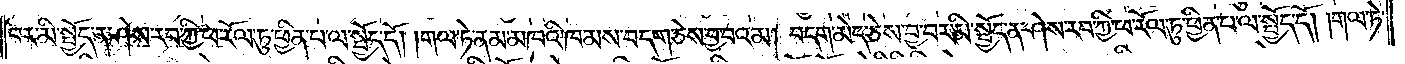བར་མི་སྤྱོད་ན་ཤེས་རབ་ཀྱི་ཕ་རོལ་ཏུ་ཕྱིན་པ་ལ་སྤྱོད་དོ། །གལ་ཏེ་ནམ་མཁའི་ཁམས་བདག་ཅེས་བྱ་བའམ། བདག་མེད་ཅེས་བྱ་བར་མི་སྤྱོད་ན་ཤེས་རབ་ཀྱི་ཕ་རོལ་ཏུ་ཕྱིན་པ་ལ་སྤྱོད་དོ། །གལ་ཏེ་
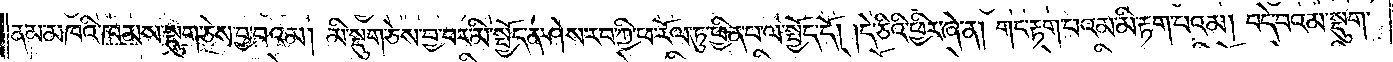ནམ་མཁའི་ཁམས་སྡུག་ཅེས་བྱ་བའམ། མི་སྡུག་ཅེས་བྱ་བར་མི་སྤྱོད་ན་ཤེས་རབ་ཀྱི་ཕ་རོལ་ཏུ་ཕྱིན་པ་ལ་སྤྱོད་དོ། །དེ་ཅིའི་ཕྱིར་ཞེ་ན། གང་རྟག་པའམ་མི་རྟག་པའམ། བདེ་བའམ་སྡུག་
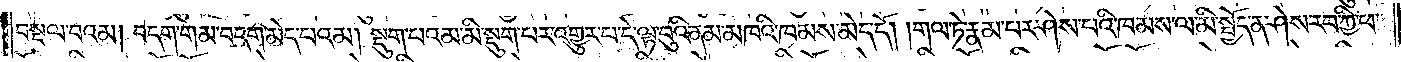བསྔལ་བའམ། བདག་གམ་བདག་མེད་པའམ། སྡུག་པའམ་མི་སྡུག་པར་འགྱུར་བ་དེ་ལྟ་བུའི་ནམ་མཁའི་ཁམས་མེད་དོ། །གལ་ཏེ་རྣམ་པར་ཤེས་པའི་ཁམས་ལ་མི་སྤྱོད་ན་ཤེས་རབ་ཀྱི་ཕ་
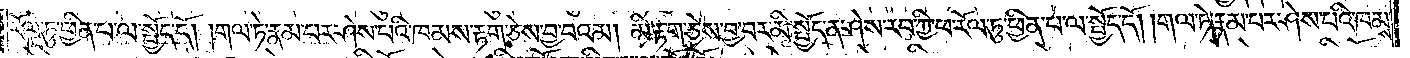རོལ་ཏུ་ཕྱིན་པ་ལ་སྤྱོད་དོ། །གལ་ཏེ་རྣམ་པར་ཤེས་པའི་ཁམས་རྟག་ཅེས་བྱ་བའམ། མི་རྟག་ཅེས་བྱ་བར་མི་སྤྱོད་ན་ཤེས་རབ་ཀྱི་ཕ་རོལ་ཏུ་ཕྱིན་པ་ལ་སྤྱོད་དོ། །གལ་ཏེ་རྣམ་པར་ཤེས་པའི་ཁམས་
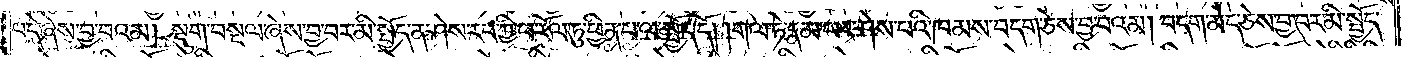བདེ་ཞེས་བྱ་བའམ། སྡུག་བསྔལ་ཞེས་བྱ་བར་མི་སྤྱོད་ན་ཤེས་རབ་ཀྱི་ཕ་རོལ་ཏུ་ཕྱིན་པ་ལ་སྤྱོད་དོ། །གལ་ཏེ་རྣམ་པར་ཤེས་པའི་ཁམས་བདག་ཅེས་བྱ་བའམ། བདག་མེད་ཅེས་བྱ་བར་མི་སྤྱོད་
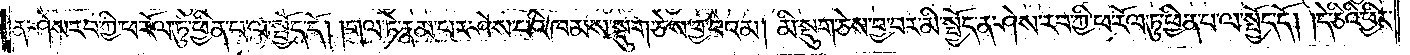ན་ཤེས་རབ་ཀྱི་ཕ་རོལ་ཏུ་ཕྱིན་པ་ལ་སྤྱོད་དོ། །གལ་ཏེ་རྣམ་པར་ཤེས་པའི་ཁམས་སྡུག་ཅེས་བྱ་བའམ། མི་སྡུག་ཅེས་བྱ་བར་མི་སྤྱོད་ན་ཤེས་རབ་ཀྱི་ཕ་རོལ་ཏུ་ཕྱིན་པ་ལ་སྤྱོད་དོ། །དེ་ཅིའི་ཕྱིར་
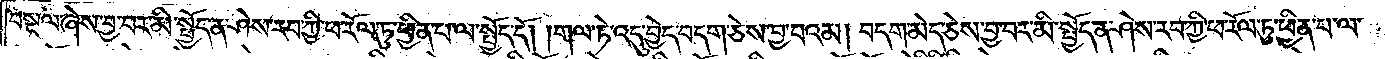བསྔལ་ཞེས་བྱ་བར་མི་སྤྱོད་ན་ཤེས་རབ་ཀྱི་ཕ་རོལ་ཏུ་ཕྱིན་པ་ལ་སྤྱོད་དོ། །གལ་ཏེ་འདུ་བྱེད་བདག་ཅེས་བྱ་བའམ། བདག་མེད་ཅེས་བྱ་བར་མི་སྤྱོད་ན་ཤེས་རབ་ཀྱི་ཕ་རོལ་ཏུ་ཕྱིན་པ་ལ་
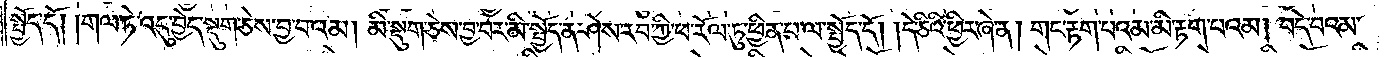སྤྱོད་དོ། །གལ་ཏེ་འདུ་བྱེད་སྡུག་ཅེས་བྱ་བའམ། མི་སྡུག་ཅེས་བྱ་བར་མི་སྤྱོད་ན་ཤེས་རབ་ཀྱི་ཕ་རོལ་ཏུ་ཕྱིན་པ་ལ་སྤྱོད་དོ། །དེ་ཅིའི་ཕྱིར་ཞེ་ན། གང་རྟག་པའམ་མི་རྟག་པའམ། བདེ་བའམ་
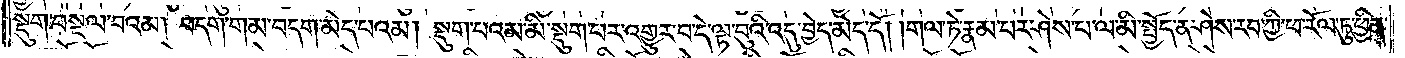སྡུག་བསྔལ་བའམ། བདག་གམ་བདག་མེད་པའམ། སྡུག་པའམ་མི་སྡུག་པར་འགྱུར་བ་དེ་ལྟ་བུའི་འདུ་བྱེད་མེད་དོ། །གལ་ཏེ་རྣམ་པར་ཤེས་པ་ལ་མི་སྤྱོད་ན་ཤེས་རབ་ཀྱི་ཕ་རོལ་ཏུ་ཕྱིན་
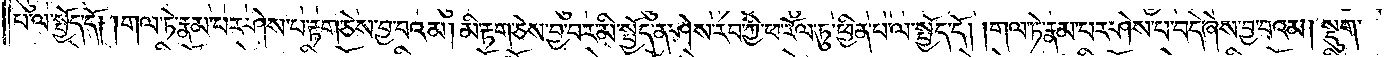པ་ལ་སྤྱོད་དོ། །གལ་ཏེ་རྣམ་པར་ཤེས་པ་རྟག་ཅེས་བྱ་བའམ། མི་རྟག་ཅེས་བྱ་བར་མི་སྤྱོད་ན་ཤེས་རབ་ཀྱི་ཕ་རོལ་ཏུ་ཕྱིན་པ་ལ་སྤྱོད་དོ། །གལ་ཏེ་རྣམ་པར་ཤེས་པ་བདེ་ཞེས་བྱ་བའམ། སྡུག་
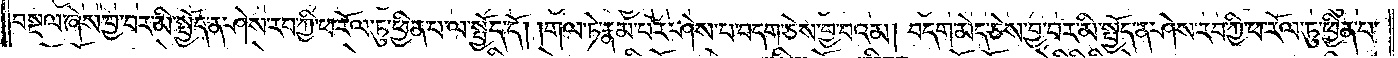བསྔལ་ཞེས་བྱ་བར་མི་སྤྱོད་ན་ཤེས་རབ་ཀྱི་ཕ་རོལ་ཏུ་ཕྱིན་པ་ལ་སྤྱོད་དོ། །གལ་ཏེ་རྣམ་པར་ཤེས་པ་བདག་ཅེས་བྱ་བའམ། བདག་མེད་ཅེས་བྱ་བར་མི་སྤྱོད་ན་ཤེས་རབ་ཀྱི་ཕ་རོལ་ཏུ་ཕྱིན་པ་
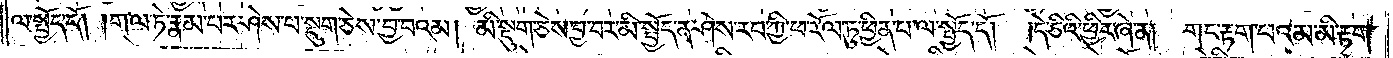ལ་སྤྱོད་དོ། །གལ་ཏེ་རྣམ་པར་ཤེས་པ་སྡུག་ཅེས་བྱ་བའམ། མི་སྡུག་ཅེས་བྱ་བར་མི་སྤྱོད་ན་ཤེས་རབ་ཀྱི་ཕ་རོལ་ཏུ་ཕྱིན་པ་ལ་སྤྱོད་དོ། །དེ་ཅིའི་ཕྱིར་ཞེ་ན། གང་རྟག་པའམ་མི་རྟག་
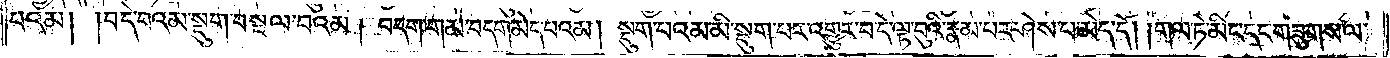པའམ། བདེ་བའམ་སྡུག་བསྔལ་བའམ། བདག་གམ་བདག་མེད་པའམ། སྡུག་པའམ་མི་སྡུག་པར་འགྱུར་བ་དེ་ལྟ་བུའི་རྣམ་པར་ཤེས་པ་མེད་དོ། །གལ་ཏེ་མིང་དང་གཟུགས་ལ་
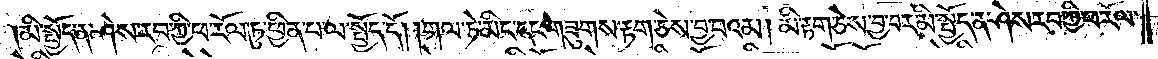མི་སྤྱོད་ན་ཤེས་རབ་ཀྱི་ཕ་རོལ་ཏུ་ཕྱིན་པ་ལ་སྤྱོད་དོ། །གལ་ཏེ་མིང་དང་གཟུགས་རྟག་ཅེས་བྱ་བའམ། མི་རྟག་ཅེས་བྱ་བར་མི་སྤྱོད་ན་ཤེས་རབ་ཀྱི་ཕ་རོལ་
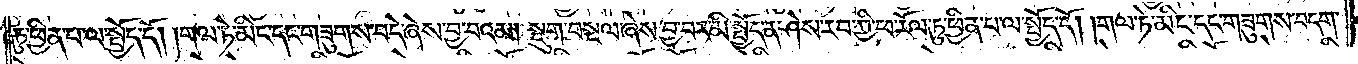ཏུ་ཕྱིན་པ་ལ་སྤྱོད་དོ། །གལ་ཏེ་མིང་དང་གཟུགས་བདེ་ཞེས་བྱ་བའམ། སྡུག་བསྔལ་ཞེས་བྱ་བར་མི་སྤྱོད་ན་ཤེས་རབ་ཀྱི་ཕ་རོལ་ཏུ་ཕྱིན་པ་ལ་སྤྱོད་དོ། །གལ་ཏེ་མིང་དང་གཟུགས་བདག་
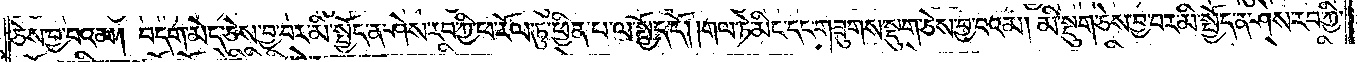ཅེས་བྱ་བའམ། བདག་མེད་ཅེས་བྱ་བར་མི་སྤྱོད་ན་ཤེས་རབ་ཀྱི་ཕ་རོལ་ཏུ་ཕྱིན་པ་ལ་སྤྱོད་དོ། །གལ་ཏེ་མིང་དང་གཟུགས་སྡུག་ཅེས་བྱ་བའམ། མི་སྡུག་ཅེས་བྱ་བར་མི་སྤྱོད་ན་ཤེས་རབ་ཀྱི་
